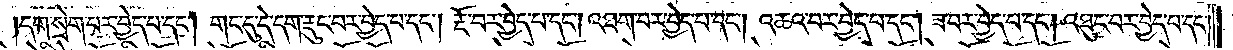དག་སྲེག་པར་བྱེད་པ་དང༌། གང་དུ་དེ་དག་རྡུང་བར་བྱེད་པ་དང༌། རྡོ་བར་བྱེད་པ་དང༌། འཐག་བར་བྱེད་པ་དང༌། འཆའ་བར་བྱེད་པ་དང༌། ཟ་བར་བྱེད་པ་དང༌། འཐུང་བར་བྱེད་པ་དང༌།
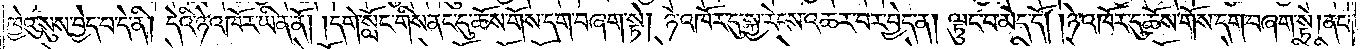ཁྱེའུ་སུས་བྱེད་པ་དེ་ནི། དེའི་ཉེ་འཁོར་ཡིན་ནོ། །དགེ་སློང་གིས་ནང་དུ་ཆོས་གོས་དག་བཞག་སྟེ། ཉེ་འཁོར་དུ་སྐྱ་རེངས་འཆར་བར་བྱེད་ན། ལྟུང་བ་མེད་དོ། །ཉེ་འཁོར་དུ་ཆོས་གོས་དག་བཞག་སྟེ། ནང་
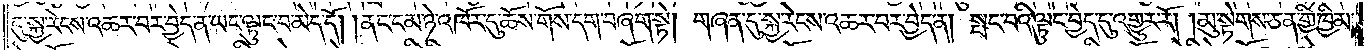དུ་སྐྱ་རེངས་འཆར་བར་བྱེད་ན་ཡང་ལྟུང་བ་མེད་དོ། །ནང་ངམ་ཉེ་འཁོར་དུ་ཆོས་གོས་དག་བཞག་སྟེ། གཞན་དུ་སྐྱ་རེངས་འཆར་བར་བྱེད་ན། སྤང་བའི་ལྟུང་བྱེད་དུ་འགྱུར་རོ། །མུ་སྟེགས་ཅན་གྱི་ཁྱིམ་
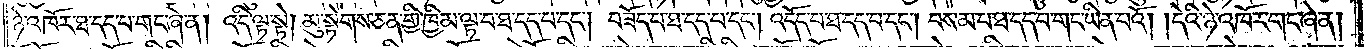ཉེ་འཁོར་ཐ་དད་པ་གང་ཞེ་ན། འདི་ལྟ་སྟེ། མུ་སྟེགས་ཅན་གྱི་ཁྱིམ་ལྟ་བ་ཐ་དད་པ་དང༌། བཟོད་པ་ཐ་དད་པ་དང༌། འདོད་པ་ཐ་དད་པ་དང༌། བསམ་པ་ཐ་དད་པ་གང་ཡིན་པའོ། །དེའི་ཉེ་འཁོར་གང་ཞེ་ན།
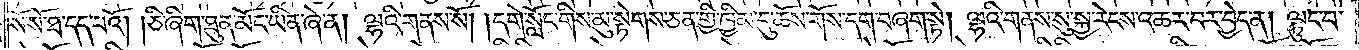སོ་སོ་ཐ་དད་པའོ། །ཅི་ཞིག་ཐུན་མོང་ཡིན་ཞེ་ན། ལྷའི་གནས་སོ། །དགེ་སློང་གིས་མུ་སྟེགས་ཅན་གྱི་ཁྱིམ་དུ་ཆོས་གོས་དག་བཞག་སྟེ། ལྷའི་གནས་སུ་སྐྱ་རེངས་འཆར་བར་བྱེད་ན། ལྟུང་བ་
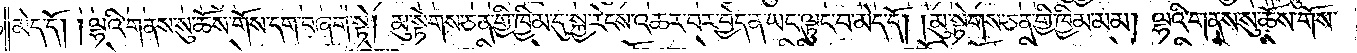མེད་དོ། །ལྷའི་གནས་སུ་ཆོས་གོས་དག་བཞག་སྟེ། མུ་སྟེགས་ཅན་གྱི་ཁྱིམ་དུ་སྐྱ་རེངས་འཆར་བར་བྱེད་ན་ཡང་ལྟུང་བ་མེད་དོ། །མུ་སྟེགས་ཅན་གྱི་ཁྱིམ་མམ། ལྷའི་གནས་སུ་ཆོས་གོས་
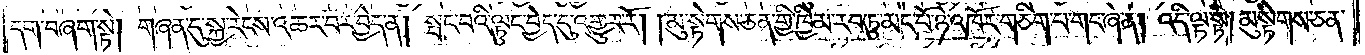དག་བཞག་སྟེ། གཞན་དུ་སྐྱ་རེངས་འཆར་བར་བྱེད་ན། སྤང་བའི་ལྟུང་བྱེད་དུ་འགྱུར་རོ། །མུ་སྟེགས་ཅན་གྱི་ཁྱིམ་རབ་ཏུ་མང་པོ་ཉེ་འཁོར་གཅིག་པ་གང་ཞེ་ན། འདི་ལྟ་སྟེ། མུ་སྟེགས་ཅན་
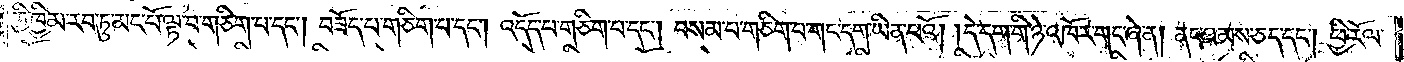གྱི་ཁྱིམ་རབ་ཏུ་མང་པོ་ལྟ་བ་གཅིག་པ་དང༌། བཟོད་པ་གཅིག་པ་དང༌། འདོད་པ་གཅིག་པ་དང༌། བསམ་པ་གཅིག་པ་གང་དག་ཡིན་པའོ། །དེ་དག་གི་ཉེ་འཁོར་གང་ཞེ་ན། ནང་ཐམས་ཅད་དང༌། ཕྱི་རོལ་
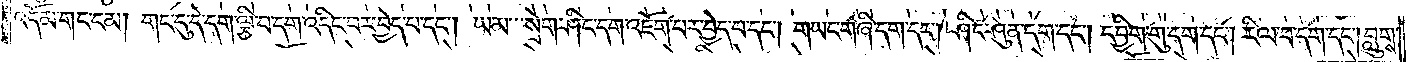འདོམ་གང་ངམ། གང་དུ་དེ་དག་ལྕི་བ་དག་འདིང་བར་བྱེད་པ་དང༌། ཡམ་སྲེག་ཤིང་དག་འཇོག་པར་བྱེད་པ་དང༌། གཡང་གཞི་དག་དང༌། ཤིང་ཤུན་དག་དང༌། དབྱིག་གུ་དག་དང༌། རིལ་བ་དག་དང༌། བླུགས་
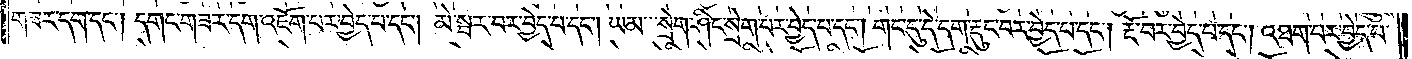གཟར་དག་དང༌། དགང་གཟར་དག་འཇོག་པར་བྱེད་པ་དང༌། མེ་སྦར་བར་བྱེད་པ་དང༌། ཡམ་སྲེག་ཤིང་སྲེག་པར་བྱེད་པ་དང༌། གང་དུ་དེ་དག་རྡུང་བར་བྱེད་པ་དང༌། རྔོ་བར་བྱེད་པ་དང༌། འཐག་པར་བྱེད་པ་
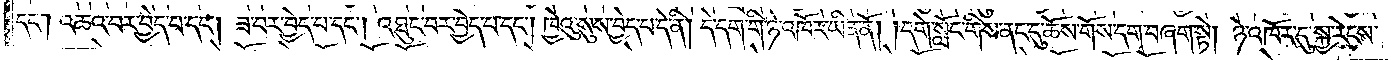དང༌། འཆའ་བར་བྱེད་པ་དང༌། ཟ་བར་བྱེད་པ་དང༌། འཐུང་བར་བྱེད་པ་དང༌། ཁྱེའུ་སུས་བྱེད་པ་དེ་ནི། དེ་དག་གི་ཉེ་འཁོར་ཡིན་ནོ། །དགེ་སློང་གིས་ནང་དུ་ཆོས་གོས་དག་བཞག་སྟེ། ཉེ་འཁོར་དུ་སྐྱ་རེངས་
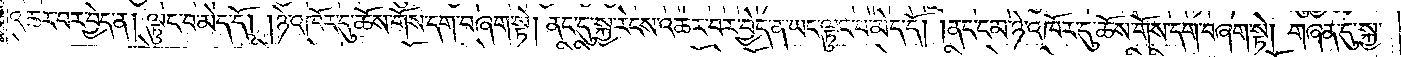འཆར་བར་བྱེད་ན། ལྟུང་བ་མེད་དོ། །ཉེ་འཁོར་དུ་ཆོས་གོས་དག་བཞག་སྟེ། ནང་དུ་སྐྱ་རེངས་འཆར་བར་བྱེད་ན་ཡང་ལྟུང་བ་མེད་དོ། །ནང་ངམ་ཉེ་འཁོར་དུ་ཆོས་གོས་དག་བཞག་སྟེ། གཞན་དུ་སྐྱ་
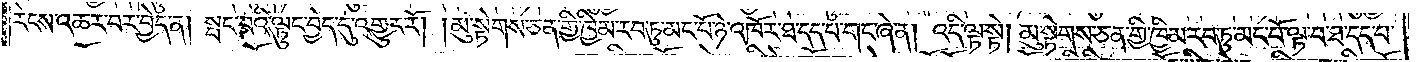རེངས་འཆར་བར་བྱེད་ན། སྤང་བའི་ལྟུང་བྱེད་དུ་འགྱུར་རོ། །མུ་སྟེགས་ཅན་གྱི་ཁྱིམ་རབ་ཏུ་མང་པོ་ཉེ་འཁོར་ཐ་དད་པ་གང་ཞེ་ན། འདི་ལྟ་སྟེ། མུ་སྟེགས་ཅན་གྱི་ཁྱིམ་རབ་ཏུ་མང་པོ་ལྟ་བ་ཐ་དད་པ་
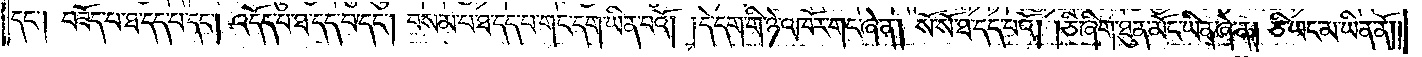དང༌། བཟོད་པ་ཐ་དད་པ་དང༌། འདོད་པ་ཐ་དད་པ་དང༌། བསམ་པ་ཐ་དད་པ་གང་དག་ཡིན་པའོ། །དེ་དག་གི་ཉེ་འཁོར་གང་ཞེ་ན། སོ་སོ་ཐ་དད་པའོ། །ཅི་ཞིག་ཐུན་མོང་ཡིན་ཞེ་ན། ཅི་ཡང་མ་ཡིན་ནོ༎
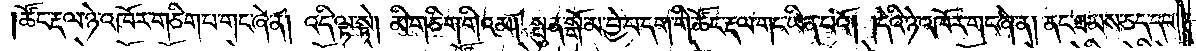ཚོང་རྡལ་ཉེ་འཁོར་གཅིག་པ་གང་ཞེ་ན། འདི་ལྟ་སྟེ། མི་གཅིག་གིའམ། སྤུན་སྒོམ་བྱེ་བ་དག་གི་ཚོང་རྡལ་གང་ཡིན་པའོ། །དེའི་ཉེ་འཁོར་གང་ཞེ་ན། ནང་ཐམས་ཅད་དང༌།
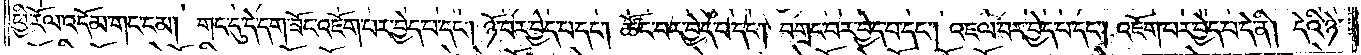ཕྱི་རོལ་འདོམ་གང་ངམ། གང་དུ་དེ་དག་ཟོང་འཇོག་པར་བྱེད་པ་དང༌། ཉོ་བར་བྱེད་པ་དང༌། ཚོང་བར་བྱེད་པ་དང༌། བགྲང་བར་བྱེད་པ་དང༌། འཇལ་བར་བྱེད་པ་དང༌། འཇོག་པར་བྱེད་པ་དེ་ནི། དེའི་ཉེ་
